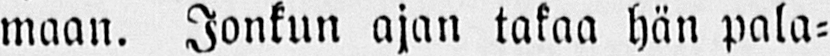maan. Jonkun ajan takaa hän pala-
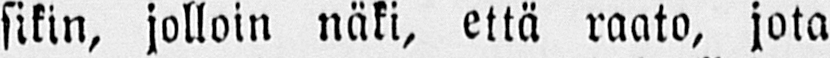sikin, jolloin näki, että raato, jota
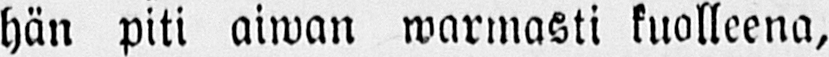hän piti aiwan warmasti kuolleena,
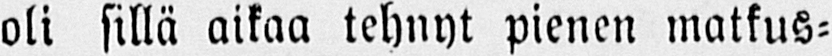oli sillä aikaa tehnyt pienen matkus-
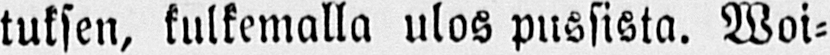tuksen, kulkemalla ulos pussista. Woi-
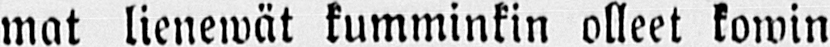mat lienewät kumminkin olleet kowin
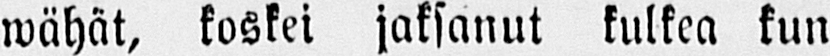wähat, koskei jaksanut kulkea kun
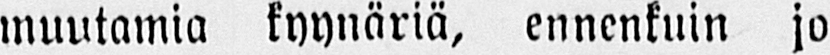muutamia kyynäriä, ennenkuin jo
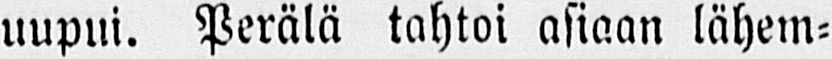uupui. Perälä tahtoi asiaan lähem-
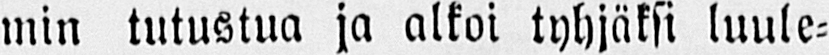min tutustua ja alkoi tyhjäksi luule-
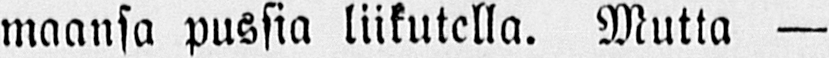maansa pussia liikutella. Mutta —
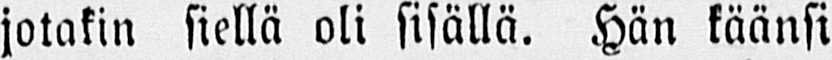jotakin siellä oli sisällä. Hän käänsi
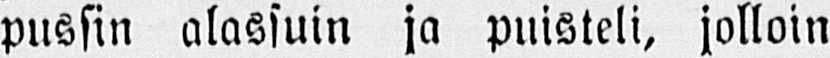pussin alassuin ja puisteli, jolloin
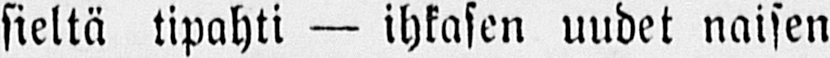sieltä tipahti — ihkasen uudet naisen
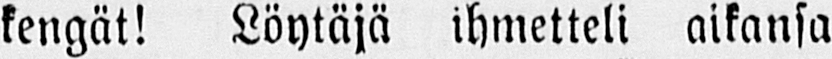kengät! Löytäjä ihmetteli aikansa
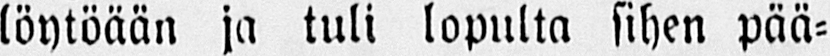löytöään ja tuli lopulta sihen pää-
